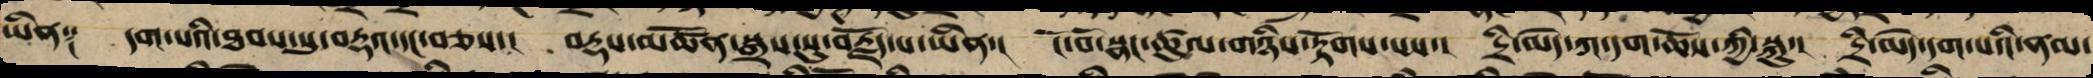ཡིན༑ དག་པའི་ཐབས་སུ་བརྡའ་དང་བཅས་། བརྡས་མཚོན་སྒྲས་སུ་བརྗོད་པ་ཡིན་། ངོ་བོ་སྣང་ཚུལ་གཉིས་རྟོགས་པས་། དྲི་མེད་ཀ་དག་ཆོས་ཀྱི་སྐུ་། དྲི་མེད་དག་པའི་ནམ་
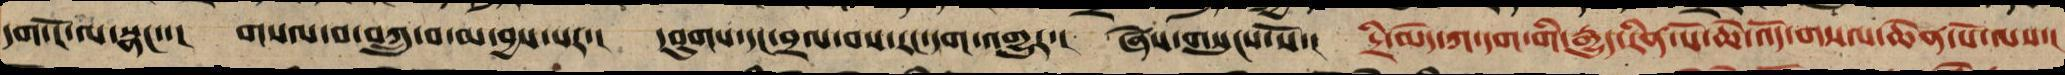དག་ངོ་ལ་སྣང་་། གསལ་བ་བཀྲུ་བ་མ་བྱས་པར་། དབུགས་དང་བྲལ་བས་རང་དག་འགྱུར་། ཞེས་གསུངས་སོ་། དྲི་མེད་ཀ་དག་གི་རྒྱུད་རིན་པོ་ཆེ་འོད་གསལ་ཆེན་པོ་ལས་།
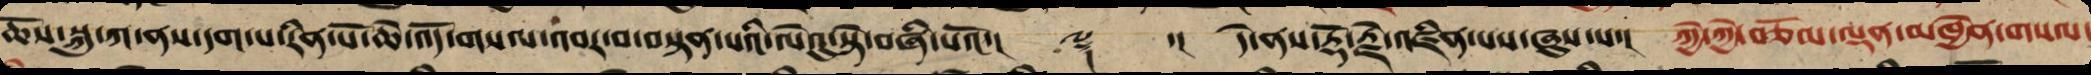ཆོས་སྐུ་ཀ་ནས་དག་པ་རིན་པོ་ཆེ་འོད་གསལ་འབར་བ་བསྟན་པའི་ལེའུ་སྟེ་བཞི་པའོ་།། ༈ ་། དེ་ནས་རྡོ་རྗེ་འཛིན་པས་ཞུས་པ་། ཀྱེ་ཀྱེ་བཅོམ་ལྡན་མཁྱེན་གསལ་
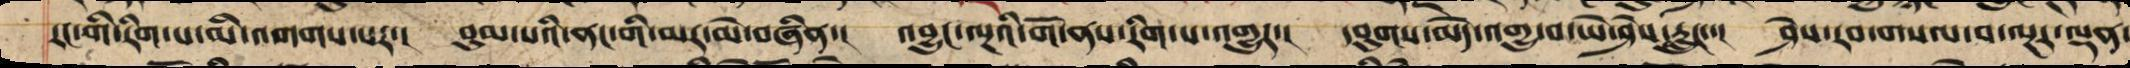རང་གི་རིག་པ་མི་འགགས་པར་།  བུམ་པའི་ནང་གི་མར་མེ་བཞིན་། འབྱུང་ལྔའི་གོ་ནས་རིག་པ་འགྱུར་། དབུགས་མེད་འགྱུ་བ་ཡེ་ཤེས་རླུང་་། ཤེས་རབ་གསལ་བ་ལྔར་ལྡན་
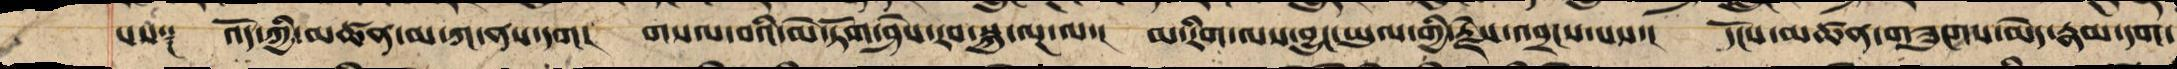པས༑ འོད་ཀྱི་མཚན་མ་ཀ་ནས་དག། གསལ་བའི་མེ་ཏོག་ཤེས་རབ་སྐུ་ལྔ་ལ་། མ་རིག་ལས་བྱུང་ཡུལ་གྱི་རྗེས་འབྲངས་པས་། དངོས་མཚན་གཟུགས་མེད་རྣམ་དག་
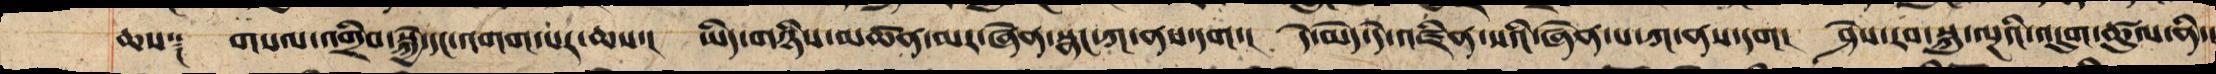ཆས༑ གསལ་འགྲིབ་སྐྱེ་དང་འགགས་པར་ཆས་། ཡིད་གཉིས་མཚན་མར་ཞེན་སྣང་ཀ་ནས་དག་། དེ་མེད་དེ་འཛིན་སའི་ཞེན་པ་ཀ་ནས་དག། ཤེས་རབ་སྐུ་ལྔའི་འདུག་ཚུལ་ནི་།
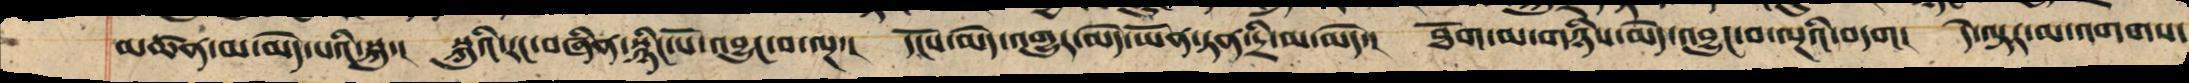མཚན་མ་མེད་པའི་སྐུ་། སྐུའི་རང་བཞིན་སྙིང་པོ་འབྱུང་བ་ལྔ་། དངོས་མེད་འགྱུར་མེད་ཡོན་ཏན་དྲི་མ་མེད་། ཐོག་མ་གཉིས་མེད་འབྱུང་བ་ལྔའི་བདག། དེ་ལྟར་མ་འགགས་
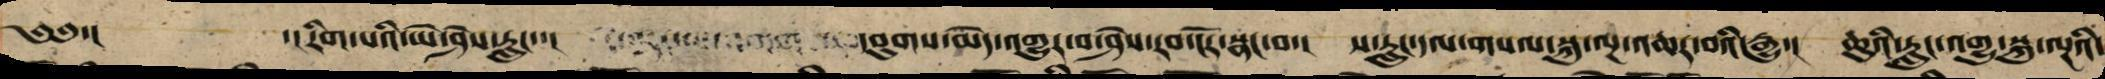༄༅་། ་།རིག་པའི་ཡེ་ཤེས་རླུང་་།  དབུགས་མེད་འགྱུར་བ་ཤེས་རབ་ངོར་སྣང་བ་། ས་རླུང་དལ་གསལ་སྐུ་ལྔ་འཆར་བའི་རྒྱུ་། ཆུའི་རླུང་འགྱུ་སྐུ་ལྔའི་
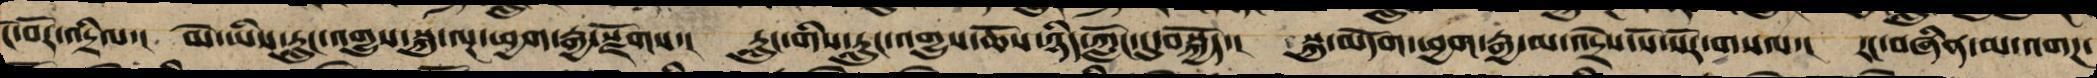ངོ་བོར་འདྲིལ་། མེ་ཡི་རླུང་འགྱུས་སྐུ་ལྔ་ཕྱག་རྒྱར་སྫོགས་།  རླུང་གི་རླུང་འགྱུས་ཆོས་ཉིད་ཀློང་དུ་བསྐྱོད་། སྐུ་མདོག་ཕྱག་རྒྱ་མ་འདྲེས་སོ་སོར་གསལ་། རང་བཞིན་མ་འགཌ་
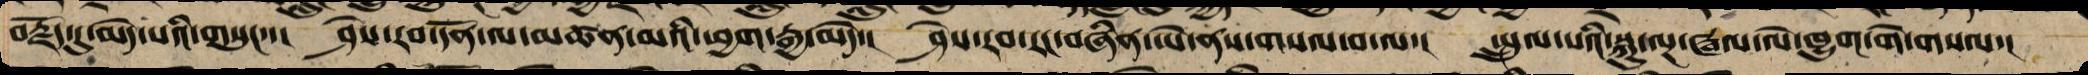བརྗོད་དུ་མེད་པའི་གསུང་་། ཤེས་རབ་དོན་ལ་མཚན་མའི་ཕྱག་རྒྱ་མེད་། ཤེས་རབ་རང་བཞིན་ཡེ་ནས་གསལ་བ་ལ་། སྤྲུལ་པའི་སྐུ་ལྔ་ཝལ་ལེ་ཁྱུག་གེ་གསལ་།
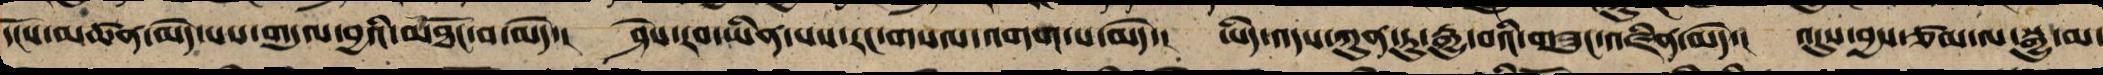དངོས་མཚན་མེད་པས་གདུལ་བྱའི་མཐོང་བ་མེད་། ཤེས་རབ་ཡིན་པས་རང་གསལ་འགག་པ་མེད་། ཡིད་འདས་ཀུན་ཏུ་རྒྱུ་བའི་གཟུང་འཛིན་མེད་། འདུས་བྱས་ཙམ་ལ་སྒྱུ་མ་
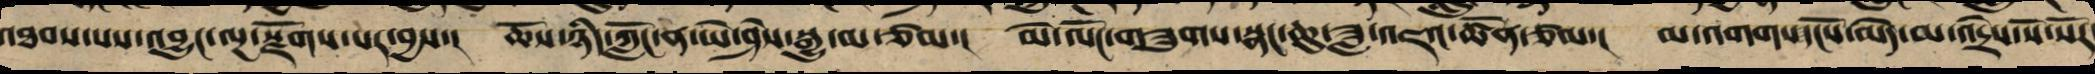འཐབས་པས་འབྱུང་ལྔ་སྫོགས་པར་བྱས་། ཆོས་ཉིད་ཀློང་ན་ཡེ་ཤེས་སྒྱུ་མ་ཙམ་། མེ་ལོང་གཟུགས་སྣང་ཆུ་ཟླ་འཇའ་ཚོན་ཙམ་། མ་འགགས་དངོས་མེད་མ་འདྲེས་སོ་སོར་
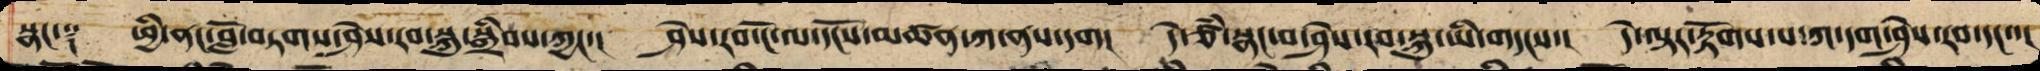སྣང་༑ ཕྱི་ནང་བློས་བཏགས་ཤེས་རབ་སྐུ་སྒྲིབས་ཀྱང་། ཤེས་རབ་ངོ་ལ་དངོས་མཚན་ཀ་ནས་དག། དེ་ཙཾ་སྣང་བ་ཤེས་རབ་སྐུ་ཡི་གདངས་། དེ་ལྟར་རྟོགས་པ་ཀ་དག་ཤེས་རབ་དང་་།
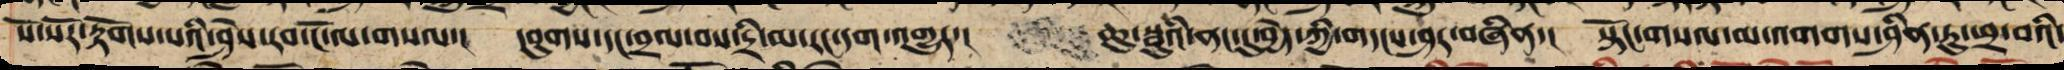སོ་སོར་རྟོགས་པའི་ཤེས་རབ་ངོ་ལ་གསལ་། དབུགས་དང་བྲལ་བས་དྲི་མ་རང་དག་འགྱུར་།  ཆུ་སྦུའི་ནང་དུ་བྱེད་ཀྱི་གདངས་ཤར་བཞིན་། སྟོང་གསལ་མ་འགགས་ཤིན་ཏུ་ཕྲ་བའི་
